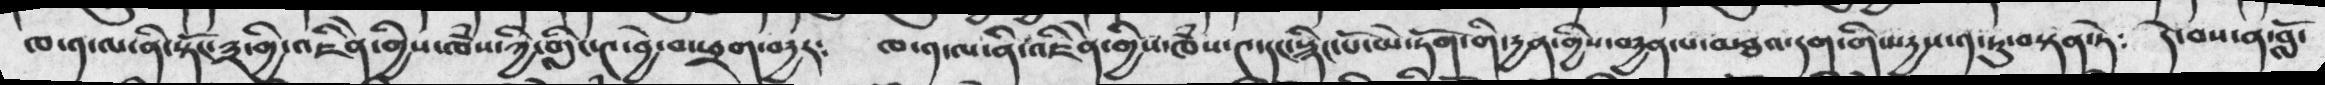ཁ་༡་ལ་ནི་སྟོང་༣་གྱི་འཇིེན་གྱིས་ཁཾས་ཀྱི་གླིང་༤་བྱེ་བ་ཕྲག་བདྱར༴   ཁ་༡་ལ་ནི་འཇིེན་གྱིས་ཁཾས་༤་དང་སྙིང་པོ་མེ་ཏོག་གི་དྱན་གྱིས་བདྱན་པ་མཐའ་དག་གིས་དྱས་༡་ཏུ་བསྟན་ཏེ༴  དེ་བས་ན་བློ་
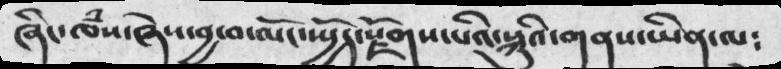ཞིང་ཁཾས་ཞེས་བྱ་བ་ལོང་སྤྱོད་སྫོགས་པའི་སྐུའི་གནས་ཡིན་ལ༴
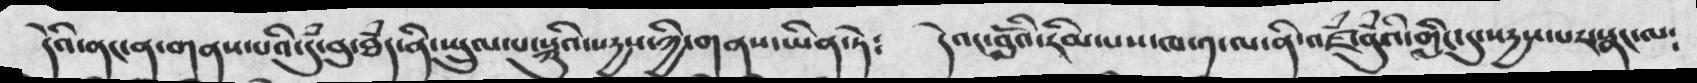དེའི་ནང་ན་གནས་པའི་དུཾ་བུ་ཐཾད་ནི་སྤྲུལ་པ་སྐུའི་སདྱས་ཀྱི་གནས་ཡིན་ཏེ༴    དེའང་བློའི་རིམ་པས་ཁ་༡་ལ་ནི་འཛཾ་བུའི་གླིང་དུ་སདྱས་པར་སྣང་ལ༴
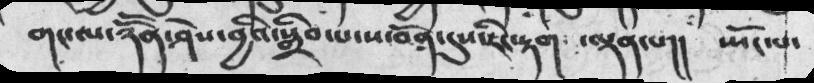གང་ལ་ཉོོན་ཤེས་བྱའི་སྒྲིབ་པ་ས་བོན་དུས་ཇིང་རྟག་ ལྡན་པ།།  ཡོང་པ་
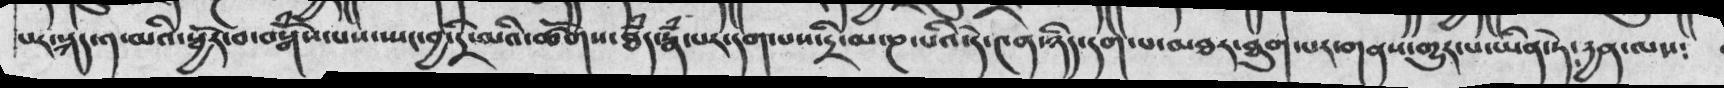པར་སྐད་༡་མའི་སྦྱོར་བ་བསྒོཾས་པས་སྤང་བྱ་དྲི་མའི་ཚོགས་ཐཾད་རྣཾ་པར་དག་པས་དྲི་མ་ཎ་པའི་དེ་༤ན་ཉིད་དག་པ་མཐར་ཐུག་པར་གནས་གྱུར་པ་ཡིན་ཏེ་དྱན་ལས༴
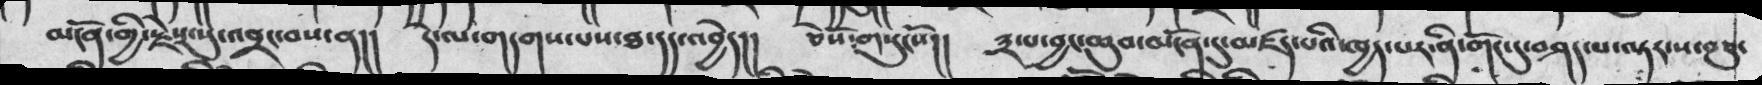མངོན་གྱི་རྗེས་སུ་འབྲང་བས་ན།། དེ་ལ་གདགས་པས་ཐ་དད་འབྱེད།།  ཅེསོ་གསུངསོ།།  ༣་པ་བྱང་ཆུབ་མངོན་དུ་མཛད་པའི་ཁྱད་པར་ནི་གོང་དུ་བཤད་པ་ལྟར་ས་བཅུ་
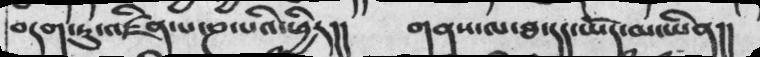བདག་ཏུ་འཛིནཔ་ཎ་པའི་ཕྱིར།།  གནས་པ་ཐ་དད་ཡོད་མ་ཡིན།།
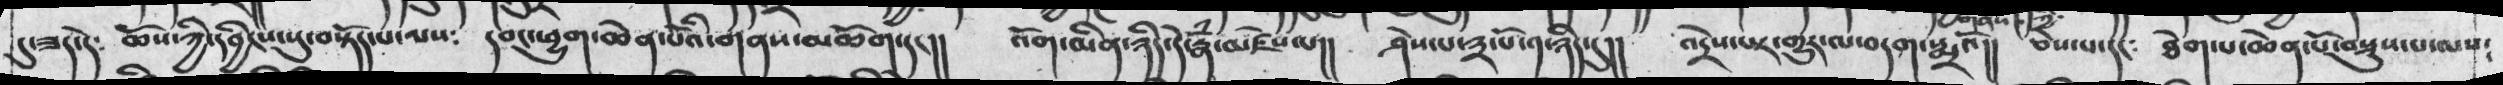དུ་ཟད་དེ༴   ཆོས་ཀྱི་དབྱིངས་སུ་བསྟོད་པ་ལས༴  དབང་ཕྱུག་ཆེན་པོའི་གནས་མཆོག་དང།།   འོག་མིན་ཉིད་དེ་རྣཾ་མཛེས་པ།།  ཤེས་པ་༣་པོ་༡་ཉིད་དུ།།   འདྲེས་པར་གྱུར་ལ་བདག་སྨྲའོ།།   ཅེས་པ་དང༴   ཐེག་པ་ཆེན་པོ་བསྡུས་པ་ལས༴
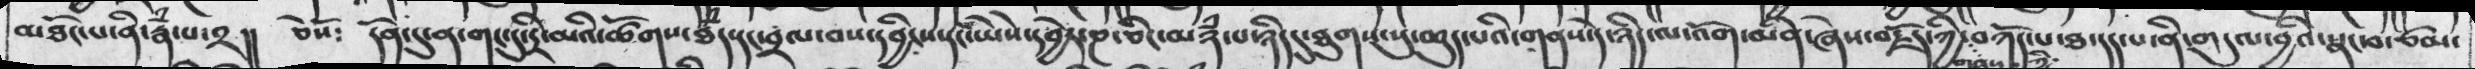མཐོང་པ་ནི་རྣཾ་པ་༢།།   ཅེསོ༴   དོན་དུ་ན་གང་དུ་དྲི་མའི་ཚོགས་ཐཾད་དང་བྲལ་བས་དབྱིངས་དང་ཡེེས་དབྱེར་ཎ་ཅིང་མཉཾ་པ་ཉིད་དུ་ཐུགས་སུ་ཆུད་པའི་གནས་དེ་ཉིད་ལ་འོག་མིན་ཞེས་བརྗོད་ཀྱི་བཀོད་པ་ཐ་དད་པ་ནི་གདུལ་བྱའི་སྣང་བ་ཙམ་
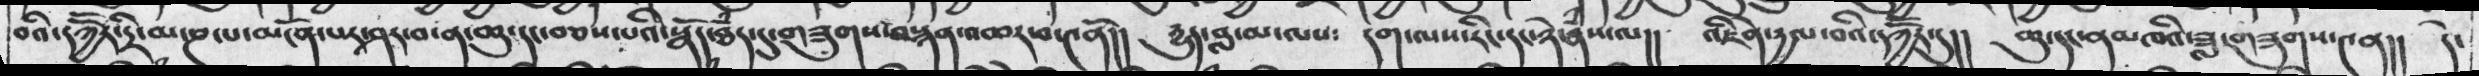བའི་དཀྱོོར་དྲི་མ་ཎ་པ་མངོན་པར་ཤར་བ་ན་ཆུ་དང་བཅས་པའི་སྣོད་ཐཾད་དུ་གཟུགས་བསྙན་འཆར་བ་༤ནོ།།   རྱུད་བླ་མ་ལལས༴   དག་ལས་རིང་དང་ཉེ་རྣཾས་ལ།།   འཇིེན་རྱལ་བའི་དཀྱོོར་དུ།།   ཆུ་དང་ནམཁའི་ཟླ་གཟུགས་༤ན།།  དེ་
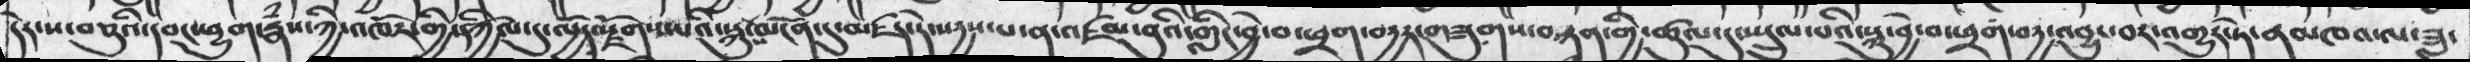དེར་ས་བཅུའི་དབང་ཕྱུག་རྣཾས་ཀྱི་འཁོར་གྱི་དཀྱིོལ་དུ་ལྱོད་སྫོགས་པའི་སྐུ་ས་མངོན་དུ་མཛད་དེ་སརྱས་པ་ན་འཛམ་གླིང་བྱེ་བ་ཕྲག་བརྱར་གཟུགས་བསྙན་གྱི་ཚུལ་དུ་ཡྲུལ་པའི་སྐུ་བྱེ་བ་ཕྲག་བརྱ་འབྱུང་བར་འགྱུར་ཏེ་ནམཁའ་ལ་ཟླ་
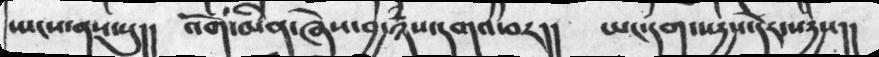སྤངས་ནས་སུ།།  འོག་མིན་ཞེས་བྱ་ཉཾས་དགའ་བར།།  ཡང་དག་སདྱས་དེར་སདྱས།།
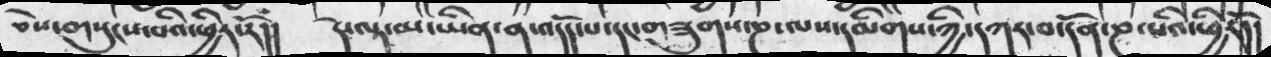ཅེས་གསུངས་པའི་ཕྱིར་རོ།།  དེ་ལྟ་མ་ཡིན་ན་འདོད་པ་དང་གཟུགས་ཎ་ལས་དམིགས་ཀྱི་དཀར་བ་དོན་ཎ་པའི་ཕྱིརོ།།
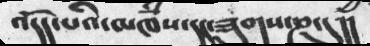འདོད་པའི་མཁཾས་དང་ཟུགས་ཎ་དུ།།
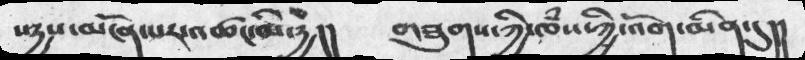སདྱས་མངོན་པར་འཚང་མི་དྱ།།   གཟུགས་ཀྱི་ཁཾས་ཀྱི་འོག་མིན་དུ།།
